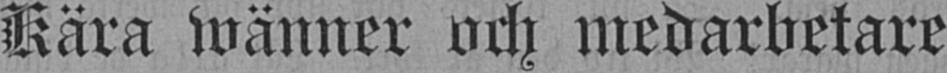Kära wänner och medarbetare
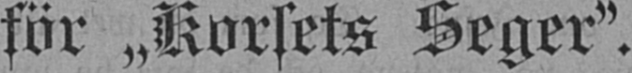för "Korsets Seger".
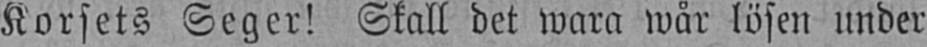Korsets Seger! Skall det wara wår lösen under
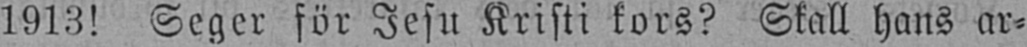1913! Seger för Jesu Kristi kors? Skall hans ar-
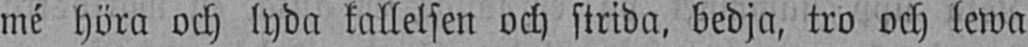mé höra och lyda kallelsen och strida, bedja, tro och lewa
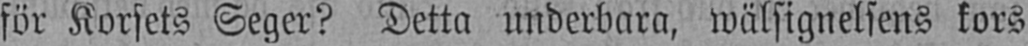för Korsets Seger? Detta underbara, wälsignelsens kors
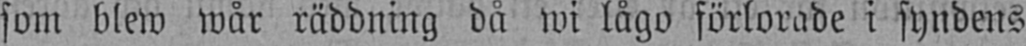som blew wår räddning då wi lågo förlorade i syndens
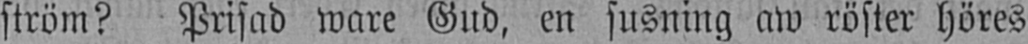ström? Prisad ware Gud, en susning aw röster höres
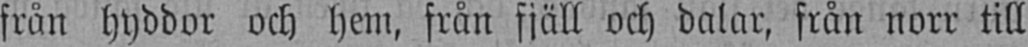från hyddor och hem, från fjäll och dalar, från norr till
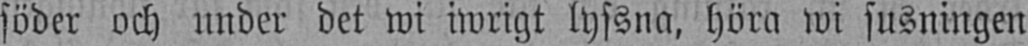söder och under det wi iwrigt lyssna, höra wi susningen
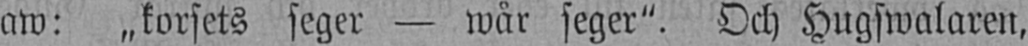aw: „korsets seger — wår seger". Och Hugswalaren,
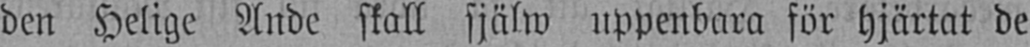den Helige Ande skall själw uppenbara för hjärtat de
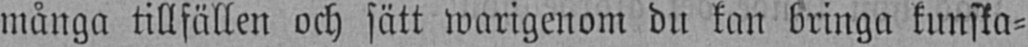många tillfällen och sätt warigenom du kan bringa kunska-
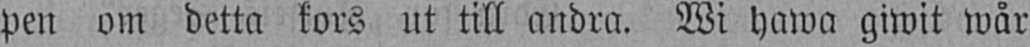pen om detta kors ut till andra. Wi hawa giwit wår
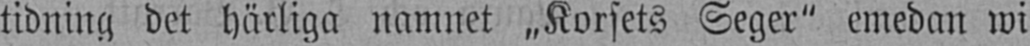tidning det härliga namnet "Korsets Seger" emedan wi
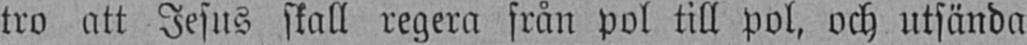tro att Jesus skall regera från pol till pol, och utsända
